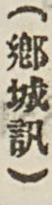（鄉城訊）
